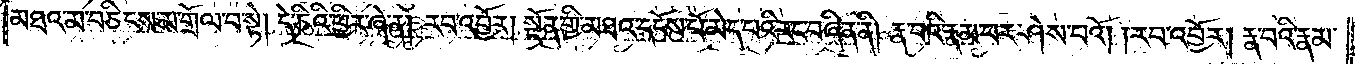མཐའ་མ་བཅིངས་མ་གྲོལ་བ་སྟེ། དེ་ཅིའི་ཕྱིར་ཞེ་ན། རབ་འབྱོར། སྔོན་གྱི་མཐའ་དངོས་པོ་མེད་པའི་རང་བཞིན་ནི། རྣ་བའི་རྣམ་པར་ཤེས་པའོ། །རབ་འབྱོར། རྣ་བའི་རྣམ་
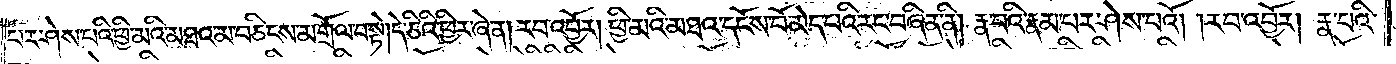པར་ཤེས་པའི་ཕྱི་མའི་མཐའ་མ་བཅིངས་མ་གྲོལ་བ་སྟེ། དེ་ཅིའི་ཕྱིར་ཞེ་ན། རབ་འབྱོར། ཕྱི་མའི་མཐའ་དངོས་པོ་མེད་པའི་རང་བཞིན་ནི། རྣ་བའི་རྣམ་པར་ཤེས་པའོ། །རབ་འབྱོར། རྣ་བའི་
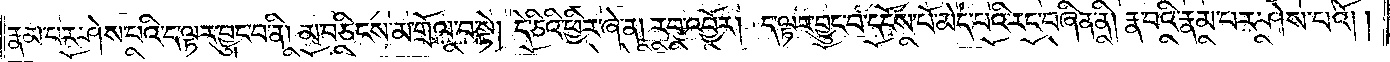རྣམ་པར་ཤེས་པའི་ད་ལྟར་བྱུང་བ་ནི། མ་བཅིངས་མ་གྲོལ་བ་སྟེ། དེ་ཅིའི་ཕྱིར་ཞེ་ན། རབ་འབྱོར། ད་ལྟར་བྱུང་བ་དངོས་པོ་མེད་པའི་རང་བཞིན་ནི། རྣ་བའི་རྣམ་པར་ཤེས་པའོ༎
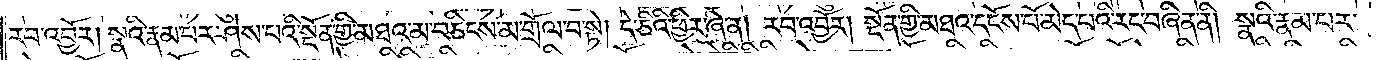རབ་འབྱོར། སྣའི་རྣམ་པར་ཤེས་པའི་སྔོན་གྱི་མཐའ་མ་བཅིངས་མ་གྲོལ་བ་སྟེ། དེ་ཅིའི་ཕྱིར་ཞེ་ན། རབ་འབྱོར། སྔོན་གྱི་མཐའ་དངོས་པོ་མེད་པའི་རང་བཞིན་ནི། སྣའི་རྣམ་པར་
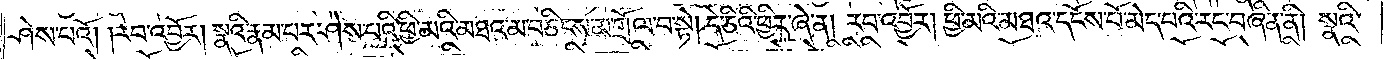ཤེས་པའོ། །རབ་འབྱོར། སྣའི་རྣམ་པར་ཤེས་པའི་ཕྱི་མའི་མཐའ་མ་བཅིངས་མ་གྲོལ་བ་སྟེ། དེ་ཅིའི་ཕྱིར་ཞེ་ན། རབ་འབྱོར། ཕྱི་མའི་མཐའ་དངོས་པོ་མེད་པའི་རང་བཞིན་ནི། སྣའི་
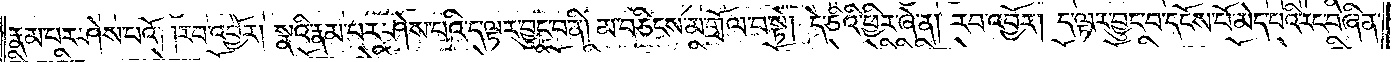རྣམ་པར་ཤེས་པའོ། །རབ་འབྱོར། སྣའི་རྣམ་པར་ཤེས་པའི་ད་ལྟར་བྱུང་བ་ནི། མ་བཅིངས་མ་གྲོལ་བ་སྟེ། དེ་ཅིའི་ཕྱིར་ཞེ་ན། རབ་འབྱོར། ད་ལྟར་བྱུང་བ་དངོས་པོ་མེད་པའི་རང་བཞིན་
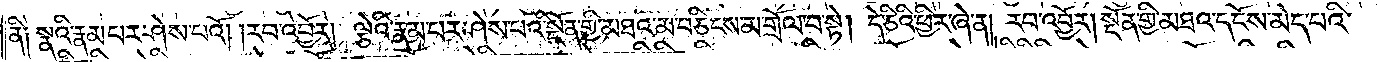ནི༑ སྣའི་རྣམ་པར་ཤེས་པའོ། །རབ་འབྱོར། ལྕེའི་རྣམ་པར་ཤེས་པའི་སྔོན་གྱི་མཐའ་མ་བཅིངས་མ་གྲོལ་བ་སྟེ། དེ་ཅིའི་ཕྱིར་ཞེ་ན། རབ་འབྱོར། སྔོན་གྱི་མཐའ་དངོས་མེད་པའི་
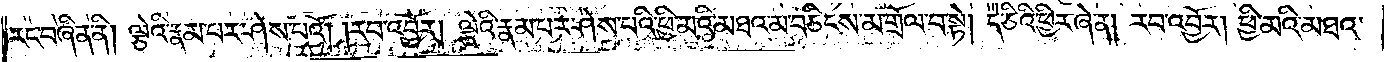རང་བཞིན་ནི། ལྕེའི་རྣམ་པར་ཤེས་པའོ། །རབ་འབྱོར། ལྕེའི་རྣམ་པར་ཤེས་པའི་ཕྱི་མའི་མཐའ་མ་བཅིངས་མ་གྲོལ་བ་སྟེ། དེ་ཅིའི་ཕྱིར་ཞེ་ན། རབ་འབྱོར། ཕྱི་མའི་མཐའ་
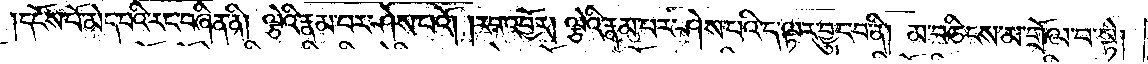དངོས་པོ་མེད་པའི་རང་བཞིན་ནི། ལྕེའི་རྣམ་པར་ཤེས་པའོ། །རབ་འབྱོར། ལྕེའི་རྣམ་པར་ཤེས་པའི་ད་ལྟར་བྱུང་བ་ནི། མ་བཅིངས་མ་གྲོལ་བ་སྟེ།
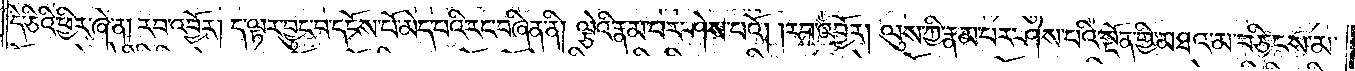དེ་ཅིའི་ཕྱིར་ཞེ་ན། རབ་འབྱོར། ད་ལྟར་བྱུང་བ་དངོས་པོ་མེད་པའི་རང་བཞིན་ནི། ལྕེའི་རྣམ་པར་ཤེས་པའོ། །རབ་འབྱོར། ལུས་ཀྱི་རྣམ་པར་ཤེས་པའི་སྔོན་གྱི་མཐའ་མ་བཅིངས་མ་
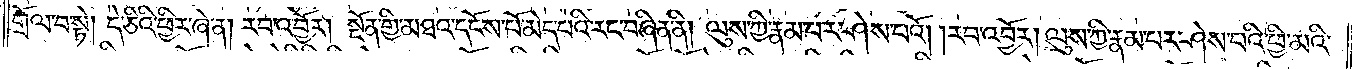གྲོལ་བ་སྟེ། དེ་ཅིའི་ཕྱིར་ཞེ་ན། རབ་འབྱོར། སྔོན་གྱི་མཐའ་དངོས་པོ་མེད་པའི་རང་བཞིན་ནི། ལུས་ཀྱི་རྣམ་པར་ཤེས་པའོ། །རབ་འབྱོར། ལུས་ཀྱི་རྣམ་པར་ཤེས་པའི་ཕྱི་མའི་
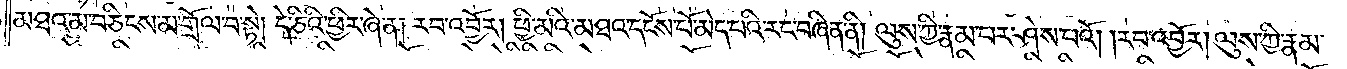མཐའ་མ་བཅིངས་མ་གྲོལ་བ་སྟེ། དེ་ཅིའི་ཕྱིར་ཞེ་ན། རབ་འབྱོར། ཕྱི་མའི་མཐའ་དངོས་པོ་མེད་པའི་རང་བཞིན་ནི། ལུས་ཀྱི་རྣམ་པར་ཤེས་པའོ། །རབ་འབྱོར། ལུས་ཀྱི་རྣམ་
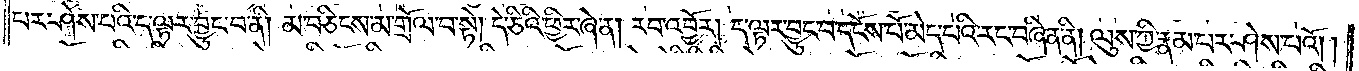པར་ཤེས་པའི་ད་ལྟར་བྱུང་བ་ནི། མ་བཅིངས་མ་གྲོལ་བ་སྟེ། དེ་ཅིའི་ཕྱིར་ཞེ་ན། རབ་འབྱོར། ད་ལྟར་བྱུང་བ་དངོས་པོ་མེད་པའི་རང་བཞིན་ནི། ལུས་ཀྱི་རྣམ་པར་ཤེས་པའོ། །
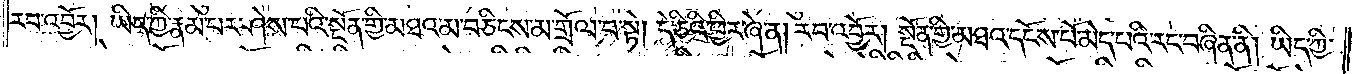རབ་འབྱོར། ཡིད་ཀྱི་རྣམ་པར་ཤེས་པའི་སྔོན་གྱི་མཐའ་མ་བཅིངས་མ་གྲོལ་བ་སྟེ། དེ་ཅིའི་ཕྱིར་ཞེ་ན། རབ་འབྱོར། སྔོན་གྱི་མཐའ་དངོས་པོ་མེད་པའི་རང་བཞིན་ནི། ཡིད་ཀྱི་
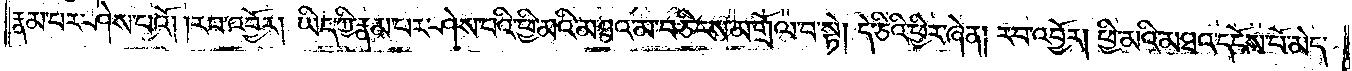རྣམ་པར་ཤེས་པའོ། །རབ་འབྱོར། ཡིད་ཀྱི་རྣམ་པར་ཤེས་པའི་ཕྱི་མའི་མཐའ་མ་བཅིངས་མ་གྲོལ་བ་སྟེ། དེ་ཅིའི་ཕྱིར་ཞེ་ན། རབ་འབྱོར། ཕྱི་མའི་མཐའ་དངོས་པོ་མེད་
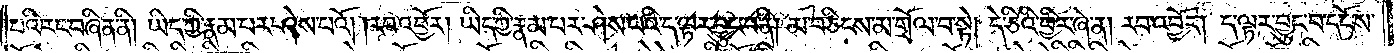པའི་རང་བཞིན་ནི། ཡིད་ཀྱི་རྣམ་པར་ཤེས་པའོ། །རབ་འབྱོར། ཡིད་ཀྱི་རྣམ་པར་ཤེས་པའི་ད་ལྟར་བྱུང་བ་ནི། མ་བཅིངས་མ་གྲོལ་བ་སྟེ། དེ་ཅིའི་ཕྱིར་ཞེ་ན། རབ་འབྱོར། ད་ལྟར་བྱུང་བ་དངོས་
